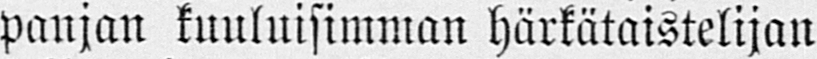panjan kuuluisimman härkätaistelijan
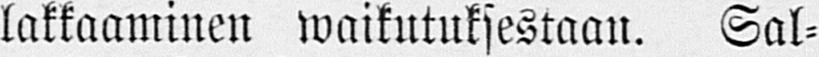lakkaaminen waikutuksestaan. Sal-
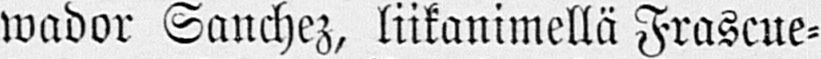wador Sanchez, liikanimellä Frascue-
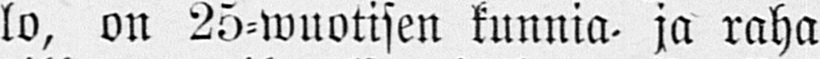lo, on 25-wuotisen kunnia- ja raha
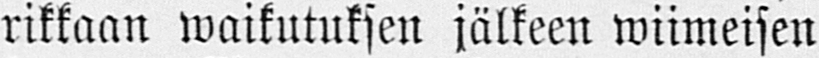rikkaan waikutuksen jälkeen wiimeisen
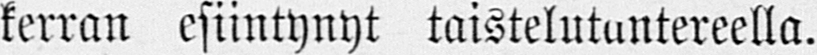kerran esiintynyt taistelutantereella.
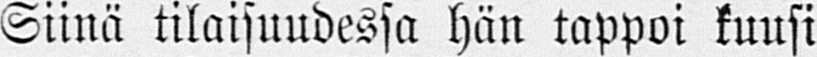Siinä tilaisuudessa hän tappoi kuusi
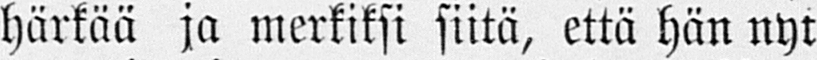härkää ja merkiksi siitä, että hän nyt
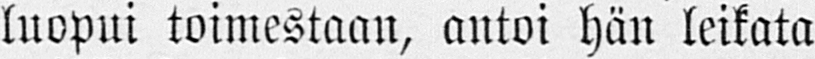luopui toimestaan, antoi hän leikata
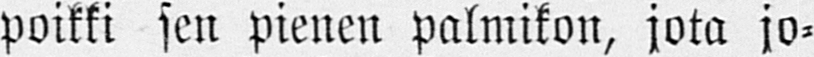poikki sen pienen palmikon, jota jo-
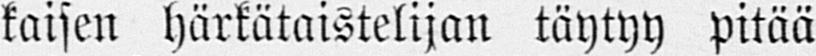kaisen härkätaistelijan täytyy pitää
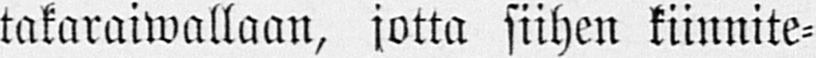takaraiwallaan, jotta siihen kiinnite-
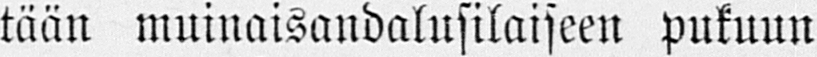tään muinaisandalusilaiseen pukuun
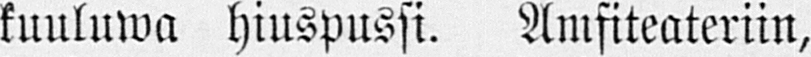kuuluwa hiuspussi. Amfiteateriin,
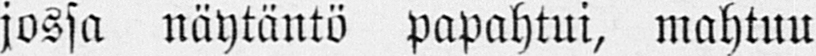jossa näytäntö papahtui, mahtuu
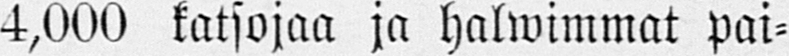14,000 katsojaa ja halwimmat pai-
